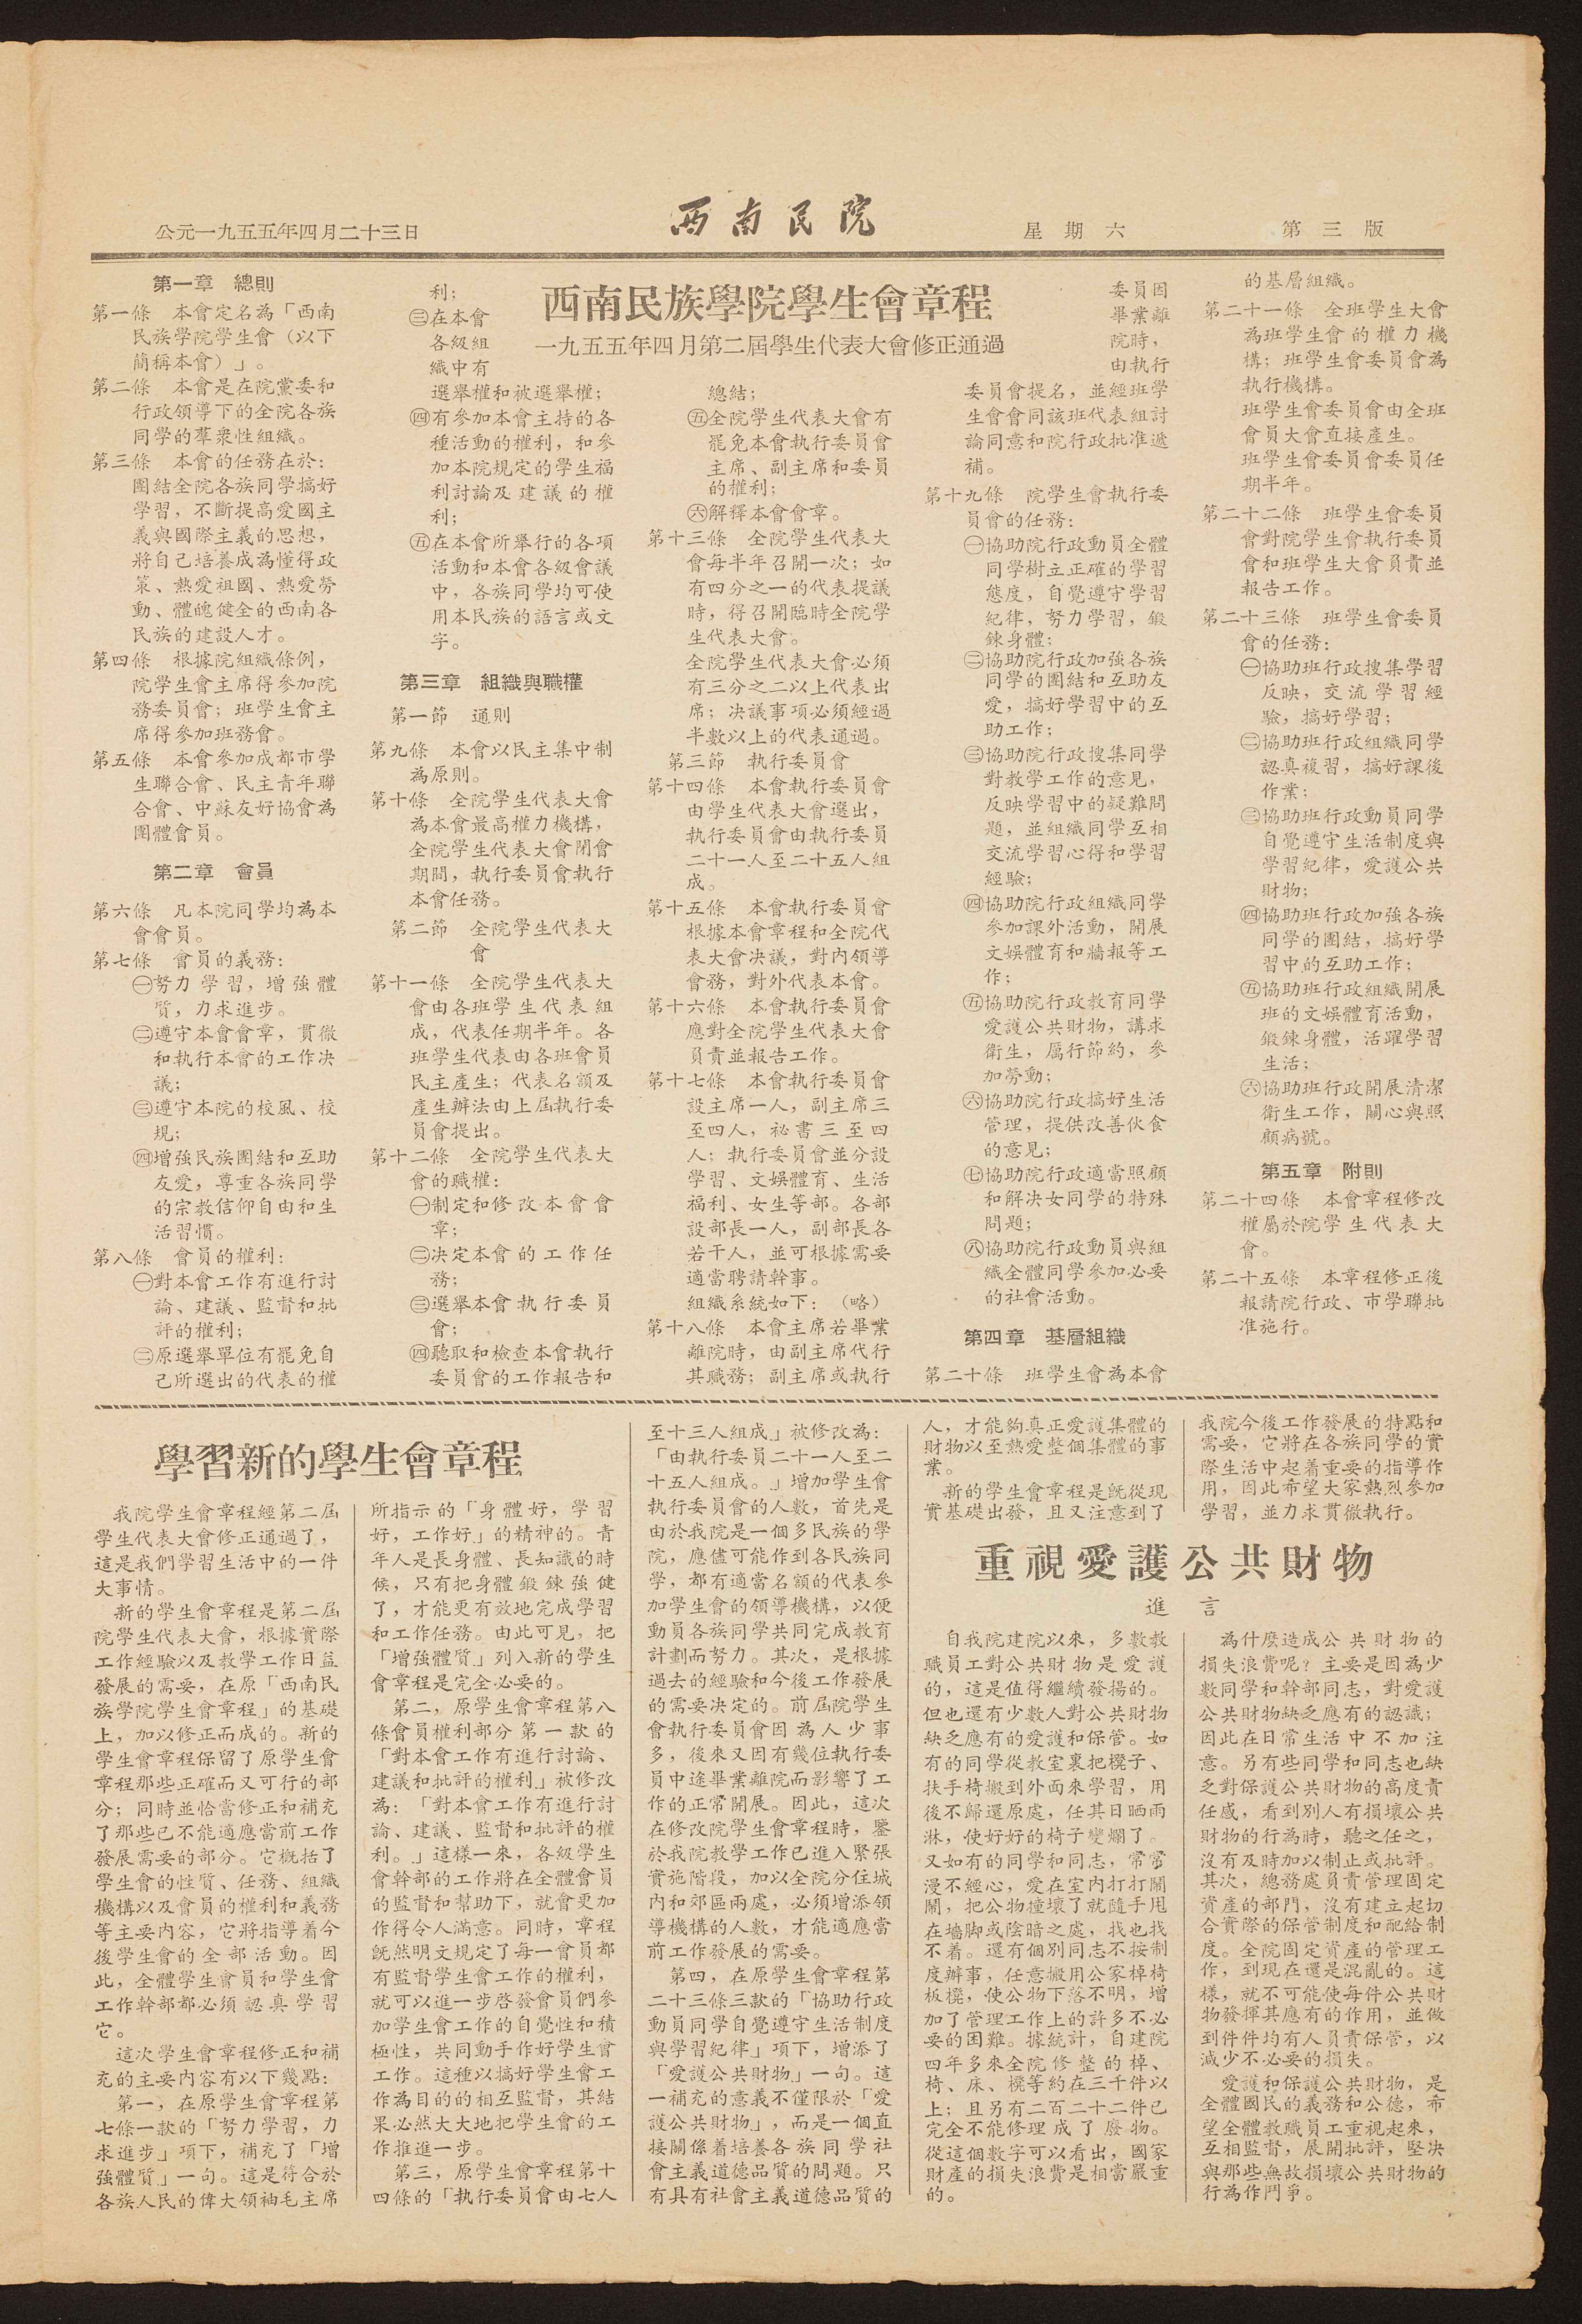公元一九五五年四月二十三日 西南民院 星期六 第三版
西南民族學院學生會章程
一九五五年四月第二屆學生代表大會修正通過
第一章 總則
第一條 本會定名為「西南
民族學院學生會（以下
簡稱本會）」。
第二條 本會是在院黨委和
行政領導下的全院各族
同學的羣衆性組織。
第三條 本會的任務在於：
團結全院各族同學搞好
學習，不斷提高愛國主
義與國際主義的思想，
將自己培養成為懂得政
策、熱愛祖國、熱愛勞
動、體魄健全的西南各
民族的建設人才。
第四條 根據院組織條例，
院學生會主席得參加院
務委員會；班學生會主
席得參加班務會。
第五條 本會參加成都市學
生聯合會、民主青年聯
合會、中蘇友好協會為
團體會員。
第二章 會員
第六條 凡本院同學均為本
會會員。
第七條 會員的義務：
㊀努力學習，增強體
質，力求進步。
㊁遵守本會會章，貫徹
和執行本會的工作決
議；
㊂遵守本院的校風、校
規；
㊃增強民族團結和互助
友愛，尊重各族同學
的宗教信仰自由和生
活習慣。
第八條 會員的權利：
㊀對本會工作有進行討
論、建議、監督和批
評的權利；
㊁原選舉單位有罷免自
己所選出的代表的權
利；
㊂在本會
各級組
織中有
選舉權和被選舉權；
㊃有參加本會主持的各
種活動的權利，和參
加本院規定的學生福
利討論及建議的權
利；
㊄在本會所舉行的各項
活動和本會各級會議
中，各族同學均可使
用本民族的語言或文
字。
第三章 組織與職權
第一節 通則
第九條 本會以民主集中制
為原則。
第十條 全院學生代表大會
為本會最高權利機構，
全院學生代表大會閉會
期間，執行委員會執行
本會任務。
第二節 全院學生代表大
會
第十一條 全院學生代表大
會由各班學生代表組
成，代表任期半年。各
班學生代表由各班會員
民主產生；代表名額及
產生辦法由上屆執行委
員會提出。
第十二條 全院學生代表大
會的職權：
㊀制訂和修改本會會
章；
㊁決定本會的工作任
務；
㊂選舉本會執行委員
會；
㊃聽取和檢查本會執行
委員會的工作報告和
總結；
㊄全院學生代表大會有
罷免本會執行委員會
主席、副主席和委員
的權利；
㊅解釋本會會章。
第十三條 全院學生代表大
會每半年召開一次；如
有四分之一的代表提議
時，得召開臨時全院學
生代表大會。
全院學生代表大會必須
有三分之二以上代表出
席；決議事項必須經過
半數以上的代表通過。
第三節 執行委員會
第十四條 本會執行委員會
由學生代表大會選出，
執行委員會由執行委員
二十一人至二十五人組
成。
第十五條 本會執行委員會
根據本會章程和全院代
表大會決議，對內領導
會務，對外代表本會。
第十六條 本會執行委員會
應對全院學生代表大會
負責並報告工作。
第十七條 本會執行委員會
設主席一人，副主席三
至四人，祕書三至四
人；執行委員會並分設
學習、文娛體育、生活
福利、女生等部。各部
設部長一人，副部長各
若干人，並可根據需要
適當聘請幹事。
組織系統如下： （略）
第十八條 本會主席若畢業
離院時，由副主席代行
其職務；副主席或執行
委員因
畢業離
院時，
由執行
委員會提名，並經班學
生會會同該班代表組討
論同意和院行政批准遞
補。
第十九條 院學生會執行委
員會的任務：
㊀協助院行政動員全體
同學樹立正確的學習
態度，自覺遵守學習
紀律，努力學習，鍛
鍊身體；
㊁協助院行政加強各族
同學的團結和互助友
愛，搞好學習中的互
助工作；
㊂協助院行政搜集同學
對教學工作的意見，
反映學習中的疑難問
題，並組織同學互相
交流學習心得和學習
經驗；
㊃協助院行政組織同學
參加課外活動，開展
文娛體育和牆報等工
作；
㊄協助院行政教育同學
愛護公共財物，講求
衛生，厲行節約，參
加勞動；
㊅協助院行政搞好生活
管理，提供改善伙食
的意見；
㊆協助院行政適當照顧
和解決女同學的特殊
問題；
㊇協助院行政動員與組
織全體同學參加必要
的社會活動。
第四章 基層組織
第二十條 班學生會為本會
的基層組織。
第二十一條 全班學生大會
為班學生會的權力機
構；班學生會委員會為
執行機構。
班學生會委員會由全班
會員大會直接產生。
班學生會委員會委員任
期半年。
第二十二條 班學生會委員
會對院學生會執行委員
會和班學生大會負責並
報告工作。
第二十三條 班學生會委員
會的任務：
㊀協助班行政搜集學習
反映，交流學習經
驗，搞好學習；
㊁協助班行政組織同學
認真複習，搞好課後
作業；
㊂協助班行政動員同學
自覺遵守生活制度與
學習紀律，愛護公共
財物；
㊃協助班行政加強各族
同學的團結，搞好學
習中的互助工作；
㊄協助班行政組織開展
班的文娛體育活動，
鍛鍊身體，活躍學習
生活；
㊅協助班行政開展清潔
衛生工作，關心與照
顧病號。
第五章 附則
第二十四條 本會章程修改
權屬於院學生代表大
會。
第二十五條 本章程修正後
報請院行政、市學聯批
准施行。
學習新的學生會章程
我院學生章程經第二屆
學生代表大會修正通過了，
這是我們學習生活中的一件
大事情。
新的學生會章程是第二屆
院學生代表大會，根據實際
工作經驗以及教學工作日益
發展的需要，在院「西南民
族學院學生會章程」的基礎
上，加以修正而成的。新的
學生會章程保留了原學生會
章程那些正確而又可行的部
分；同時並恰當修正和補充
了那些已不能適應當前工作
發展需要的部分。它概括了
學生會的性質、任務、組織
機構以及會員的權利和義務
等主要內容，它將指導着今
後學生會的全部活動。因
此，全體學生會員和學生會
工作幹部都必須認真學習
它。
這次學生會章程修正和補
充的主要內容有以下幾點：
第一，在院學生會章程第
七條一款的「努力學習，力
求進步」項下，補充了「增
強體質」一句。這是符合於
各族人民的偉大領袖毛主席
所指示的「身體好，學習
好，工作好」的精神的。青
年人是長身體、長知識的時
候，只有把身體鍛鍊強健
了，才能更有效地完成學習
和工作任務。由此可見，把
「增強體質」列入新的學生
會章程是完全必要的。
第二，原學生會章程第八
條會員權利部分第一款的
「對本會工作有進行討論、
建議和批評的權利」被修改
為：「對本會工作有進行討
論、建議、監督和批評的權
利。」這樣一來，各級學生
會幹部的工作將在全體會員
的監督和幫助下，就會更加
作得令人滿意。同時，章程
旣然明文規定了每一會員都
有監督學生會工作的權利，
就可以進一步啓發會員們參
加學生會工作的自覺性和積
極性，共同動手做好學生會
工作。這種以搞好學生會工
作為目的的相互監督，其結
果必然大大地把學生會的工
作推進一步。
第三，原學生會章程第十
四條的「執行委員會由七人
至十三人組成」被修改為：
「由執行委員二十一人至二
十五人組成。」增加學生會
執行委員會的人數，首先是
由於我院是一個多民族的學
院，應儘可能作到各民族同
學，都有適當名額的代表參
加學生會的領導機構，以便
動員各族同學共同完成教育
計劃而努力。其次，是根據
過去的經驗和今後工作發展
的需要決定的。前屆院學生
會執行委員會因為人少事
多，後來又因有幾位執行委
員中途畢業離院而影響了工
作的正常開展。因此，這次
在修改院學生會章程時，鑒
於我院教學工作已進入緊張
實施階段，加以全院分住城
內和郊區兩處，必須增添領
導機構的人數，才能適應當
前工作發展的需要。
第四，在原學生會章程第
二十三條三款的「協助行政
動員同學自覺遵守生活制度
與學習紀律」項下，增添了
「愛護公共財物」一句。這
一補充的意義不僅限於「愛
護公共財物」，而是一個直
接關係着培養各族同學社
會主義道德品質的問題。只
由具有社會主義道德品質的
人，才能夠真正愛護集體的
財物以至熱愛整個集體的事
業。
新的學生會章程是旣從現
實基礎出發，且又注意到了
我院今後工作發展的特點和
需要，它將在各族同學的實
際生活中起着重要的指導作
用，因此希望大家熱烈參加
學習，並力求貫徹執行。
重視愛護公共財物
進 言
自我院建院以來，多數教
職員工對公共財物是愛護
的，這是值得繼續發揚的。
但也還有少數人對公共財物
缺乏應有的愛護和保管。如
有的同學從教室裏把櫈子、
扶手椅搬到外面來學習，用
後不歸還原處，任其日晒雨
淋，使好好的椅子變爛了。
又如有的同學和同志，常常
漫不經心，愛在室內打打鬧
鬧，把公物撞壞了就隨手甩
在牆角或陰暗之處，找也找
不着。還有個別同志不按制
度辦事，任意搬用公家棹椅
板櫈，使公物下落不明，增
加了管理工作上的許多不必
要的困難。據統計，自建院
四年多來全院修整的棹、
椅、床、櫈等約在三千件以
上；且另有二百二十二件已
完全不能修理成了廢物。
從這個數字可以看出，國家
財產的損失浪費是相當嚴重
的。
為什麼造成公共財物的
損失浪費呢？主要是因為少
數同學和幹部同志，對愛護
公共財物缺乏應有的認識；
因此在日常生活中不加注
意。另有些同學和同志也缺
乏對保護公共財物的高度責
任感，看到別人有損壞公共
財物的行為時，聽之任之，
沒有及時加以制止或批評。
其次，總務處負責管理固定
資產的部門，沒有建立起切
合實際的保管制度和配給制
度。全院固定資產的管理工
作，到現在還是混亂的。這
樣，就不可能使每件公共財
物發揮其應有的作用，並做
到件件均有人負責保管，以
減少不必要的損失。
愛護和保護公共財物，是
全體國民的義務和公德，希
望全體教職員工重視起來，
互相監督，展開批評，堅決
與那些無故損壞公共財物的
行為作鬥爭。
